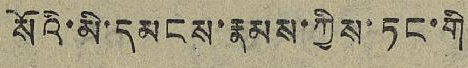སོའི་མི་དམངས་རྣམས་ཀྱིས་ཏང་གི
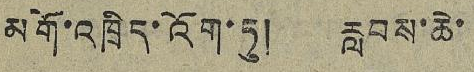མགོ་འཁྲིད་འོག་ཏུ། རླབས་ཆེ་
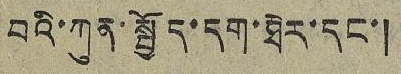བའི་ཀུན་སྦྱོད་དག་ཐེར་དང་།
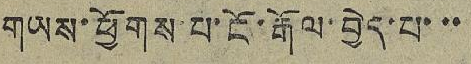གཡས་ཕྱོགས་པ་ངོ་རྒོལ་བྱེད་པ་་་
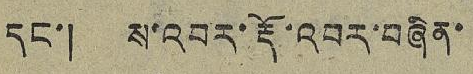དང་། ས་འབར་རྡོ་འབར་བཞིན་
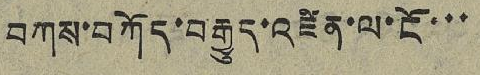བཀས་བཀོད་བརྒྱུད་འཛིན་ལ་ངོ་་་
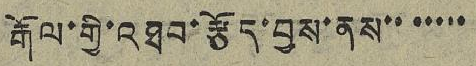རྒོལ་གྱི་འཐབ་རྩོད་བྱས་ནས་་་་་་་
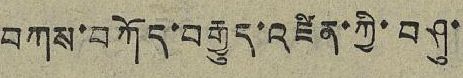བཀས་བཀོད་བརྒྱུད་འཛིན་ཀྱི་བཤུ་
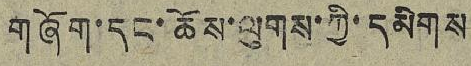གཞོག་དང་ཆོས་ལུགས་ཀྱི་དམིགས
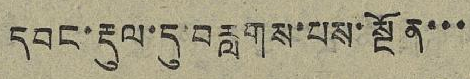དབང་རྡུལ་དུ་བརླགས་པས་སྔོན་་་
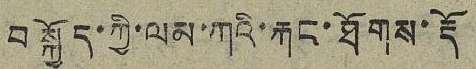བསྐྱོད་ཀྱི་ལམ་ཀའི་རྐང་ཐོགས་རྡོ
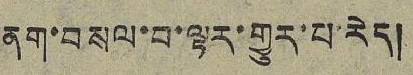ནག་བསལ་བ་ལྟར་གྱུར་པ་རེད།
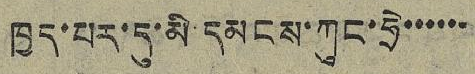ཁྱད་པར་དུ་མི དམངས་ཀུང་ཧྲེ་་་་་་
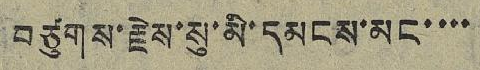བཙུགས་རྗེས་སུ་མི་དམངས་མང་་་་
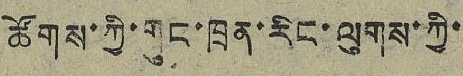ཚོགས་ཀྱི་གུང་ཁྲན་རིང་ལུགས་ཀྱི་
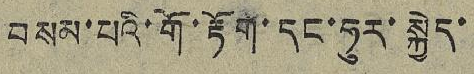བསམ་པའི་གོ་རྟོག་དང་ཧུར་སྐྱེད་
